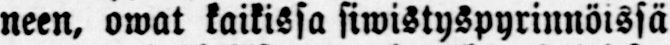lleen, owat kaikissa siwistyspyrinnöissä
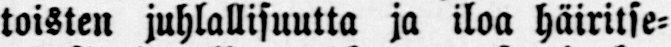toisten juhlallisuutta ja iloa häiritse-
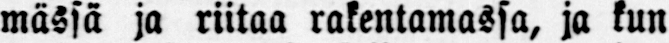mässä ja riitaa rakentamassa, ja kun
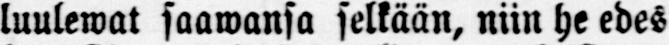luulewat saawansa selkään, niin he edes
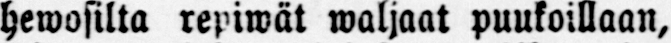hewosilta repiwät waljaat puukoillaan,
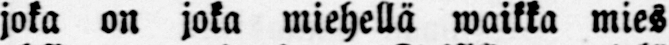joka on joka miehellä waikka mies
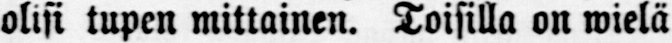olisi tupen mittainen. Toisilla on wielä
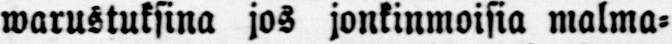warustuksina jos jonkinmoisia malma-
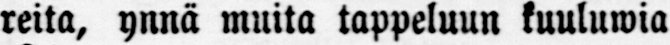reita, ynnä muita tappeluun kuuluwia
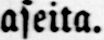aseita.
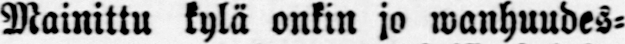Mainittu kylä onkin jo wanhuudes-
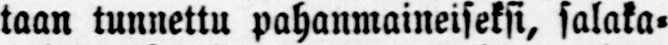taan tunnettu pahanmaineiseksi, salaka-
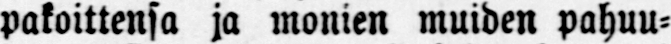pakoittensa ja monien muiden pahuu-
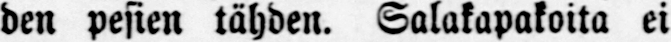den pesien tähden. Salakapakoita ei
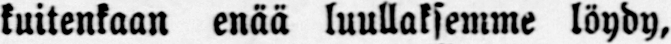kuitenkaan enää luullaksemme löydy,
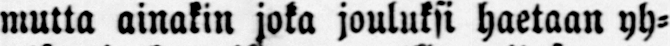mutta ainakin joka jouluksi haetaan yh-
